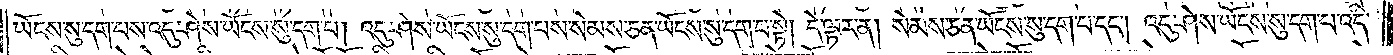ཡོངས་སུ་དག་པས་འདུ་ཤེས་ཡོངས་སུ་དག་པ། འདུ་ཤེས་ཡོངས་སུ་དག་པས་སེམས་ཅན་ཡོངས་སུ་དག་པ་སྟེ། དེ་ལྟར་ན། སེམས་ཅན་ཡོངས་སུ་དག་པ་དང༌། འདུ་ཤེས་ཡོངས་སུ་དག་པ་འདི་
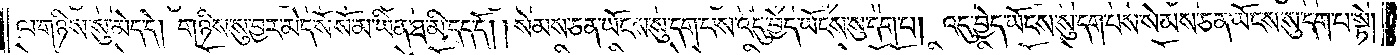ལ་གཉིས་སུ་མེད་དེ། གཉིས་སུ་བྱར་མེད་སོ་སོ་མ་ཡིན་ཐ་མི་དད་དོ། །སེམས་ཅན་ཡོངས་སུ་དག་པས་འདུ་བྱེད་ཡོངས་སུ་དག་པ། འདུ་བྱེད་ཡོངས་སུ་དག་པས་སེམས་ཅན་ཡོངས་སུ་དག་པ་སྟེ།
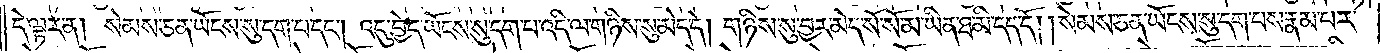དེ་ལྟར་ན། སེམས་ཅན་ཡོངས་སུ་དག་པ་དང༌། འདུ་བྱེད་ཡོངས་སུ་དག་པ་འདི་ལ་གཉིས་སུ་མེད་དེ། གཉིས་སུ་བྱར་མེད་སོ་སོ་མ་ཡིན་ཐ་མི་དད་དོ། །སེམས་ཅན་ཡོངས་སུ་དག་པས་རྣམ་པར་
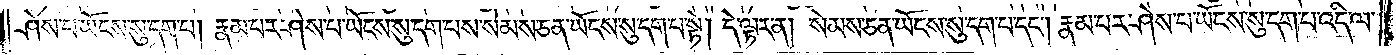ཤེས་པ་ཡོངས་སུ་དག་པ། རྣམ་པར་ཤེས་པ་ཡོངས་སུ་དག་པས་སེམས་ཅན་ཡོངས་སུ་དག་པ་སྟེ། དེ་ལྟར་ན། སེམས་ཅན་ཡོངས་སུ་དག་པ་དང༌། རྣམ་པར་ཤེས་པ་ཡོངས་སུ་དག་པ་འདི་ལ་
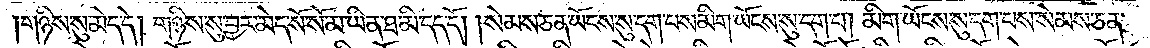གཉིས་སུ་མེད་དེ། གཉིས་སུ་བྱར་མེད་སོ་སོ་མ་ཡིན་ཐ་མི་དད་དོ། །སེམས་ཅན་ཡོངས་སུ་དག་པས་མིག་ཡོངས་སུ་དག་པ། མིག་ཡོངས་སུ་དག་པས་སེམས་ཅན་
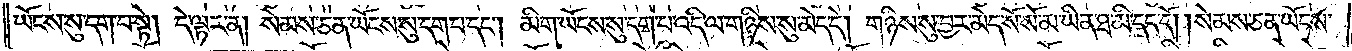ཡོངས་སུ་དག་པ་སྟེ། དེ་ལྟར་ན། སེམས་ཅན་ཡོངས་སུ་དག་པ་དང༌། མིག་ཡོངས་སུ་དག་པ་འདི་ལ་གཉིས་སུ་མེད་དེ། གཉིས་སུ་བྱར་མེད་སོ་སོ་མ་ཡིན་ཐ་མི་དད་དོ། །སེམས་ཅན་ཡོངས་
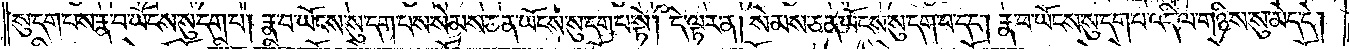སུ་དག་པས་རྣ་བ་ཡོངས་སུ་དག་པ། རྣ་བ་ཡོངས་སུ་དག་པས་སེམས་ཅན་ཡོངས་སུ་དག་པ་སྟེ། དེ་ལྟར་ན། སེམས་ཅན་ཡོངས་སུ་དག་པ་དང༌། རྣ་བ་ཡོངས་སུ་དག་པ་འདི་ལ་གཉིས་སུ་མེད་དེ།
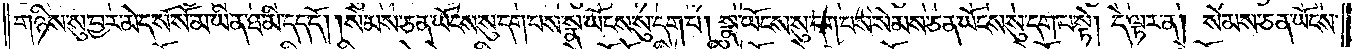གཉིས་སུ་བྱར་མེད་སོ་སོ་མ་ཡིན་ཐ་མི་དད་དོ། །སེམས་ཅན་ཡོངས་སུ་དག་པས་སྣ་ཡོངས་སུ་དག་པ། སྣ་ཡོངས་སུ་དག་པས་སེམས་ཅན་ཡོངས་སུ་དག་པ་སྟེ། དེ་ལྟར་ན། སེམས་ཅན་ཡོངས་
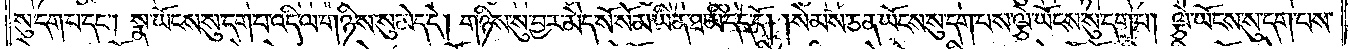སུ་དག་པ་དང༌། སྣ་ཡོངས་སུ་དག་པ་འདི་ལ་གཉིས་སུ་མེད་དེ། གཉིས་སུ་བྱར་མེད་སོ་སོ་མ་ཡིན་ཐ་མི་དད་དོ། །སེམས་ཅན་ཡོངས་སུ་དག་པས་ལྕེ་ཡོངས་སུ་དག་པ། ལྕེ་ཡོངས་སུ་དག་པས་
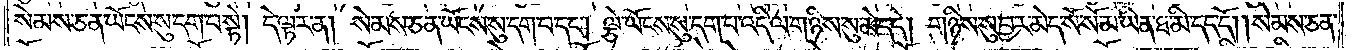སེམས་ཅན་ཡོངས་སུ་དག་པ་སྟེ། དེ་ལྟར་ན། སེམས་ཅན་ཡོངས་སུ་དག་པ་དང༌། ལྕེ་ཡོངས་སུ་དག་པ་འདི་ལ་གཉིས་སུ་མེད་དེ། གཉིས་སུ་བྱར་མེད་སོ་སོ་མ་ཡིན་ཐ་མི་དད་དོ༎ སེམས་ཅན་
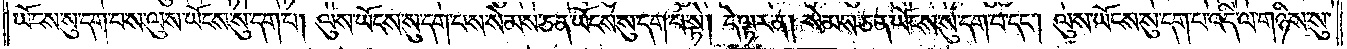ཡོངས་སུ་དག་པས་ལུས་ཡོངས་སུ་དག་པ། ལུས་ཡོངས་སུ་དག་པས་སེམས་ཅན་ཡོངས་སུ་དག་པ་སྟེ། དེ་ལྟར་ན། སེམས་ཅན་ཡོངས་སུ་དག་པ་དང༌། ལུས་ཡོངས་སུ་དག་པ་འདི་ལ་གཉིས་སུ་
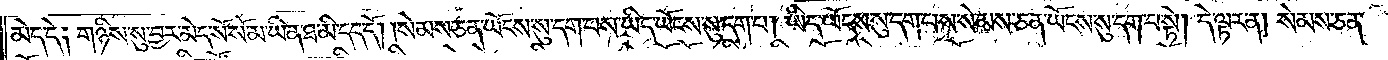མེད་དེ༑ གཉིས་སུ་བྱར་མེད་སོ་སོ་མ་ཡིན་ཐ་མི་དད་དོ། །སེམས་ཅན་ཡོངས་སུ་དག་པས་ཡིད་ཡོངས་སུ་དག་པ། ཡིད་ཡོངས་སུ་དག་པས་སེམས་ཅན་ཡོངས་སུ་དག་པ་སྟེ། དེ་ལྟར་ན། སེམས་ཅན་
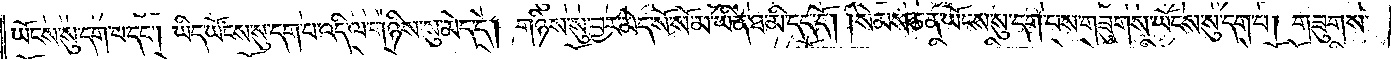ཡོངས་སུ་དག་པ་དང༌། ཡིད་ཡོངས་སུ་དག་པ་འདི་ལ་གཉིས་སུ་མེད་དེ། གཉིས་སུ་བྱར་མེད་སོ་སོ་མ་ཡིན་ཐ་མི་དད་དོ། །སེམས་ཅན་ཡོངས་སུ་དག་པས་གཟུགས་ཡོངས་སུ་དག་པ། གཟུགས་
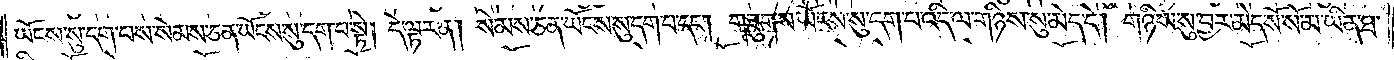ཡོངས་སུ་དག་པས་སེམས་ཅན་ཡོངས་སུ་དག་པ་སྟེ། དེ་ལྟར་ན། སེམས་ཅན་ཡོངས་སུ་དག་པ་དང༌། གཟུགས་ཡོངས་སུ་དག་པ་འདི་ལ་གཉིས་སུ་མེད་དེ། གཉིས་སུ་བྱར་མེད་སོ་སོ་མ་ཡིན་ཐ་
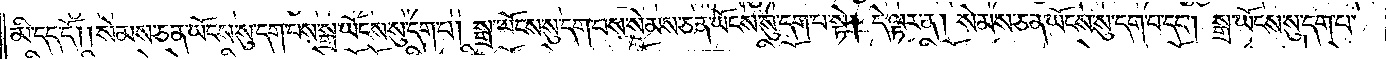མི་དད་དོ། །སེམས་ཅན་ཡོངས་སུ་དག་པས་སྒྲ་ཡོངས་སུ་དག་པ། སྒྲ་ཡོངས་སུ་དག་པས་སེམས་ཅན་ཡོངས་སུ་དག་པ་སྟེ། དེ་ལྟར་ན། སེམས་ཅན་ཡོངས་སུ་དག་པ་དང༌། སྒྲ་ཡོངས་སུ་དག་པ་
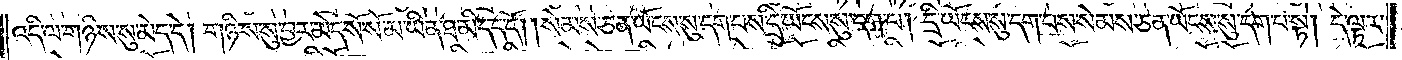འདི་ལ་གཉིས་སུ་མེད་དེ། གཉིས་སུ་བྱར་མེད་སོ་སོ་མ་ཡིན་ཐ་མི་དད་དོ། །སེམས་ཅན་ཡོངས་སུ་དག་པས་དྲི་ཡོངས་སུ་དག་པ། དྲི་ཡོངས་སུ་དག་པས་སེམས་ཅན་ཡོངས་སུ་དག་པ་སྟེ། དེ་ལྟར་
